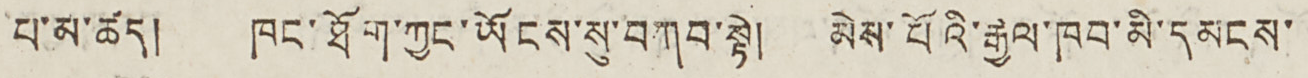པ་མ་ཚད། ཁང་ཐོག་ཀྱང་ཡོངས་སུ་བཀབ་སྟེ། མེས་པོའི་རྒྱལ་ཁབ་མི་དམངས་
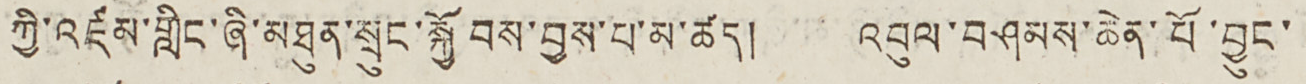ཀྱི་འཛམ་གླིང་ཞི་མཐུན་སྲུང་སྐྱོབས་བྱས་པ་མ་ཚད། འབུལ་བཤམས་ཆེན་པོ་བྱུང་
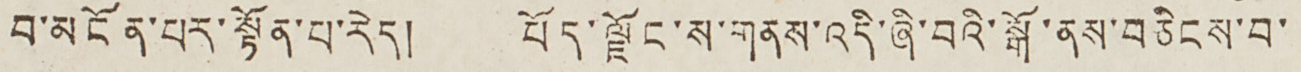བ་མངོན་པར་སྟོན་པ་རེད། བོད་ལྗོང་ས་གནས་འདི་ཞི་བའི་སྒོ་ནས་བཅིངས་བ་
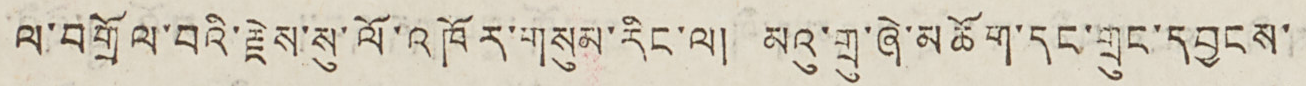ལ་བགྲོལ་བའི་རྗེས་སུ་ལོ་འཁོར་གསུམ་རིང་ལ། མའུ་གྲུ་ཞེ་མཆོག་དང་གྲུང་དབྱངས་
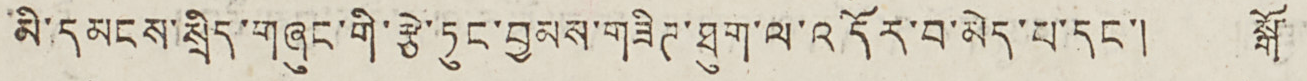མི་དམངས་སྲིད་གཞུང་གི་རྩེ་ཏུང་བྱམས་གཟིཊ་ཐུག་ལ་འདོར་བ་མེད་པ་དང་། སྒོ་
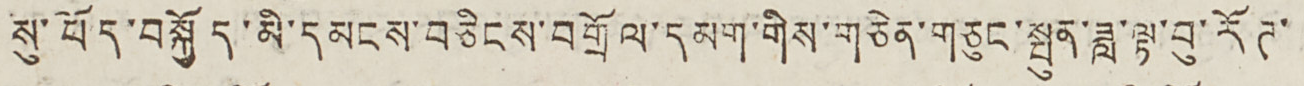སུ་བོད་བསྐྱོད་མི་དམངས་བཅིངས་བགྲོལ་དམག་གིས་གཅེན་གཅུང་སྤུན་ཟླ་ལྟ་བུ་རོཊ་
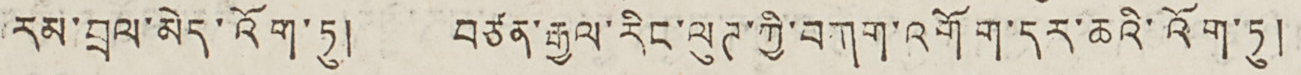རམ་བྲལ་མེད་འོག་ཏུ། བཙན་རྒྱལ་རིང་ལུཊ་ཀྱི་བཀག་འགོག་དར་ཆའི་འོག་ཏུ།
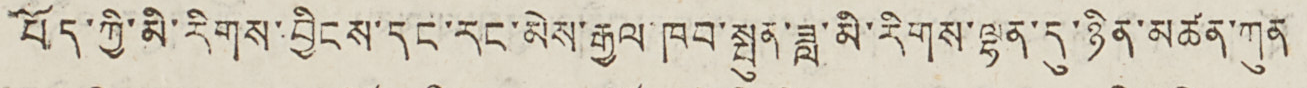བོད་ཀྱི་མི་རིགས་བྱིངས་དང་རང་མེས་རྒྱལ་ཁབ་སྤུན་ཟླ་མི་རིགས་ལྷན་དུ་ཉིན་མཚན་ཀུན
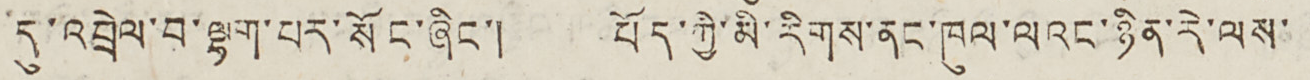དུ་འབྲེལ་བ་ལྷག་པར་སོང་ཞིང་། བོད་ཀྱི་མི་རིགས་ནང་ཁུལ་ལའང་ཉིན་རེ་ལས་
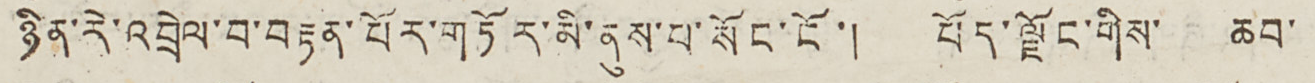ཉིན་རེ་འབྲེལ་བ་བརྟན་པོར་གཏོར་མི་ནུས་པ་སོང་ངོ་། བོད་ལྗོང་གིས་ ཆབ་
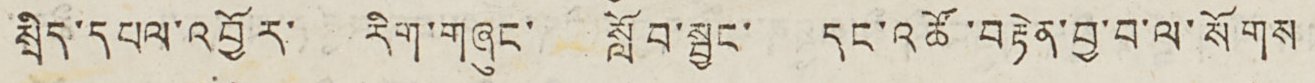སྲིད་དཔལ་འབྱོར་  རིག་གཞུང་    སློབ་སྦྱང་    དང་འཚོ་བརྟེན་བྱ་བ་ལ་སོགས
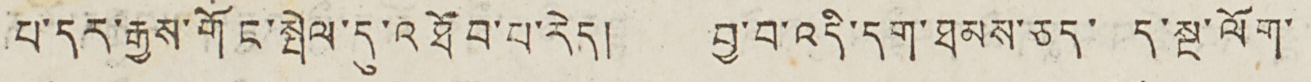པ་དར་རྒྱས་གོང་སྤེལ་དུ་འཐོབ་པ་རེད། བྱ་བ་འདི་དག་ཐམས་ཅད་ ད་སྔ་ལོག་
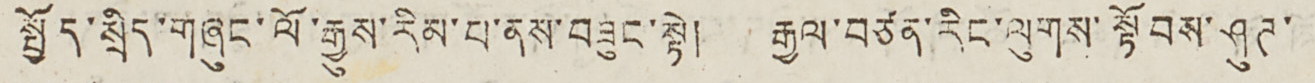སྤྱོད་སྲིད་གཞུང་ལོ་རྒྱུས་རིམ་པ་ནས་བཟུང་སྟེ། རྒྱལ་བཙན་རིང་ལུགས་སྟོབས་ཤུཊ་
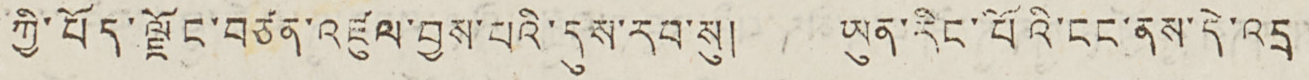ཀྱི་བོད་ལྗོང་བཙན་འཛུལ་བྱས་པའི་དུས་རབ་སུ། ཡུན་རིང་པོའི་ངང་ནས་དེ་འདྲ
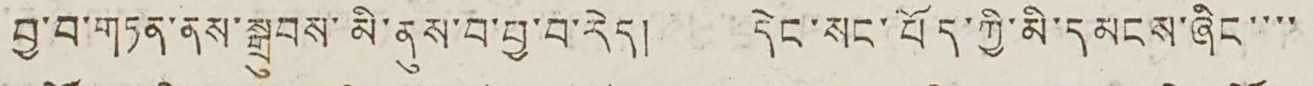བྱ་བ་གཏན་ནས་སྒྲུབས་མི་ནུས་བ་བྱ་བ་རེད། དེང་སང་བོད་ཀྱི་མི་དམངས་ཞིང་་་་
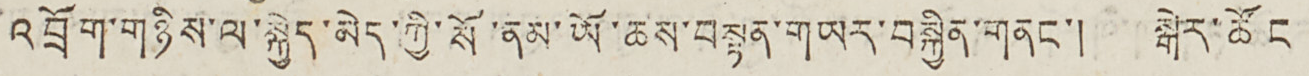འབྲོག་གཉིས་ལ་སྐྱེད་མེད་ཀྱི་སོ་ནམ་ཡོ་ཆས་བསྟན་གཡར་བསྐྱིན་གནང་། སྒེར་ཚོང
